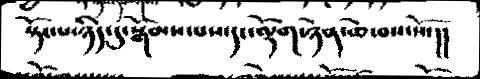སྟོང་པ་ཉིད་དུ་སྒོམས་པས་དང་ལྟོག་ཉེན་ཆེ་བས་སོ་།།
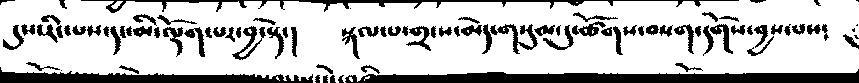དུས་རིང་པས་དང་མི་ལྡོག་པར་བྱ་སྟེ་།     སྐལ་པ་གྲངས་མེད་གསུམ་དུ་ཚོགས་བསག་དགོས་བྱས་པས་
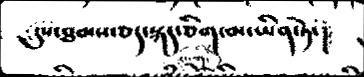དུས་ཐམས་ཅད་སྐད་ཅིག་མ་ཡིན་ཏེ་།
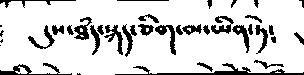དུས་ཐཾད་སྐད་ཅིག་མ་ཡིན་ཏེ༴
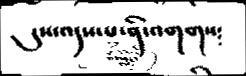དུས་འདས་པ་ནི་འགགས༴
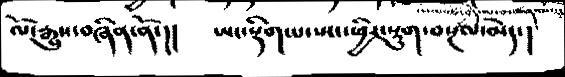ལོ་རྒྱུས་བཞིན་ནོ་།།  ཡང་སྡིག་པ་སྤང་ཕྱིར་སྡུག་བསྔལ་མེད་།
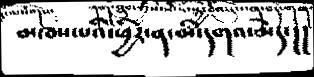མཁས་པའི་ཕྱིར་ན་མི་དགའ་མེད་།།
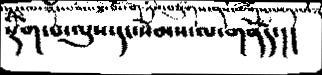སྡིག་པ་ལུས་དང་སེམས་ལ་གནོད་།།
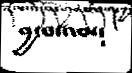བྱ་བ་འམ༴
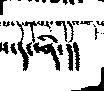ས་དང་ནི་།།
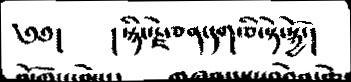༅༅།         ། སྙིང་རྗེ་ཅན་དག་ཅི་སྟེ་སྐྱོ་།
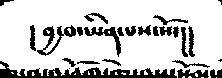། བྱ་བ་ཡིན་པས་སོ་།།
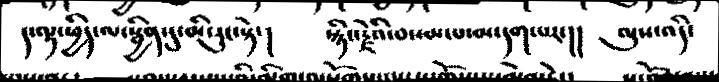ད་ལྟ་ཕྱིད་པ་སྦྱིན་དུ་མི་རུང་སྟེ་།    སྙིང་རྗེའི་བསམ་པ་མ་དག་པར་།།   ལུས་འདི་
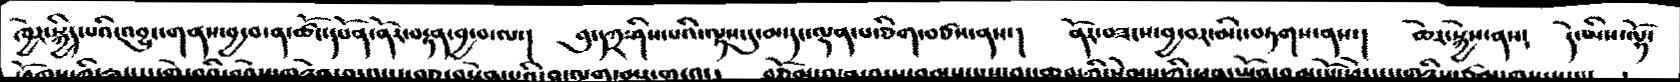ཁྱེར་སྐྱིད་པའི་འབྱུང་གནས་བྱ་བ་ན་ཚོང་དཔོན་ནོར་བརྟན་བྱ་བ་ལ་།   བུ་དཀྲ་ཤིས་པའི་ལྟས་དུ་མ་དང་ལྡན་པ་ཅིག་བཙས་ན་།   ནོར་བཟངས་བྱ་བར་མིང་བཏགས་ནས་།   ཆེར་སྐྱེས་ནས༴   དེ་ཡིས་ལྷོ་
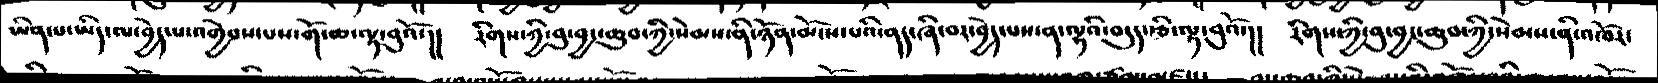ཡིན་པ་ཡིད་ལ་བྱེད་པ་འགྱེབས་པས་གོ་ཆ་ལྟ་བུའོ་།།   རིགས་ཀྱི་བུ་བྱང་ཆུབ་ཀྱི་སེམས་ནི་ཉོན་མོངས་པའི་ནད་ཞི་བར་བྱེད་པས་ན་ལྷའི་བདུད་རྩི་ལྟ་བུའོ་།།  རིགས་ཀྱི་བུ་བྱང་ཆུབ་ཀྱི་སེམས་ནི་འཁོར་
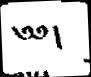༄༅།
